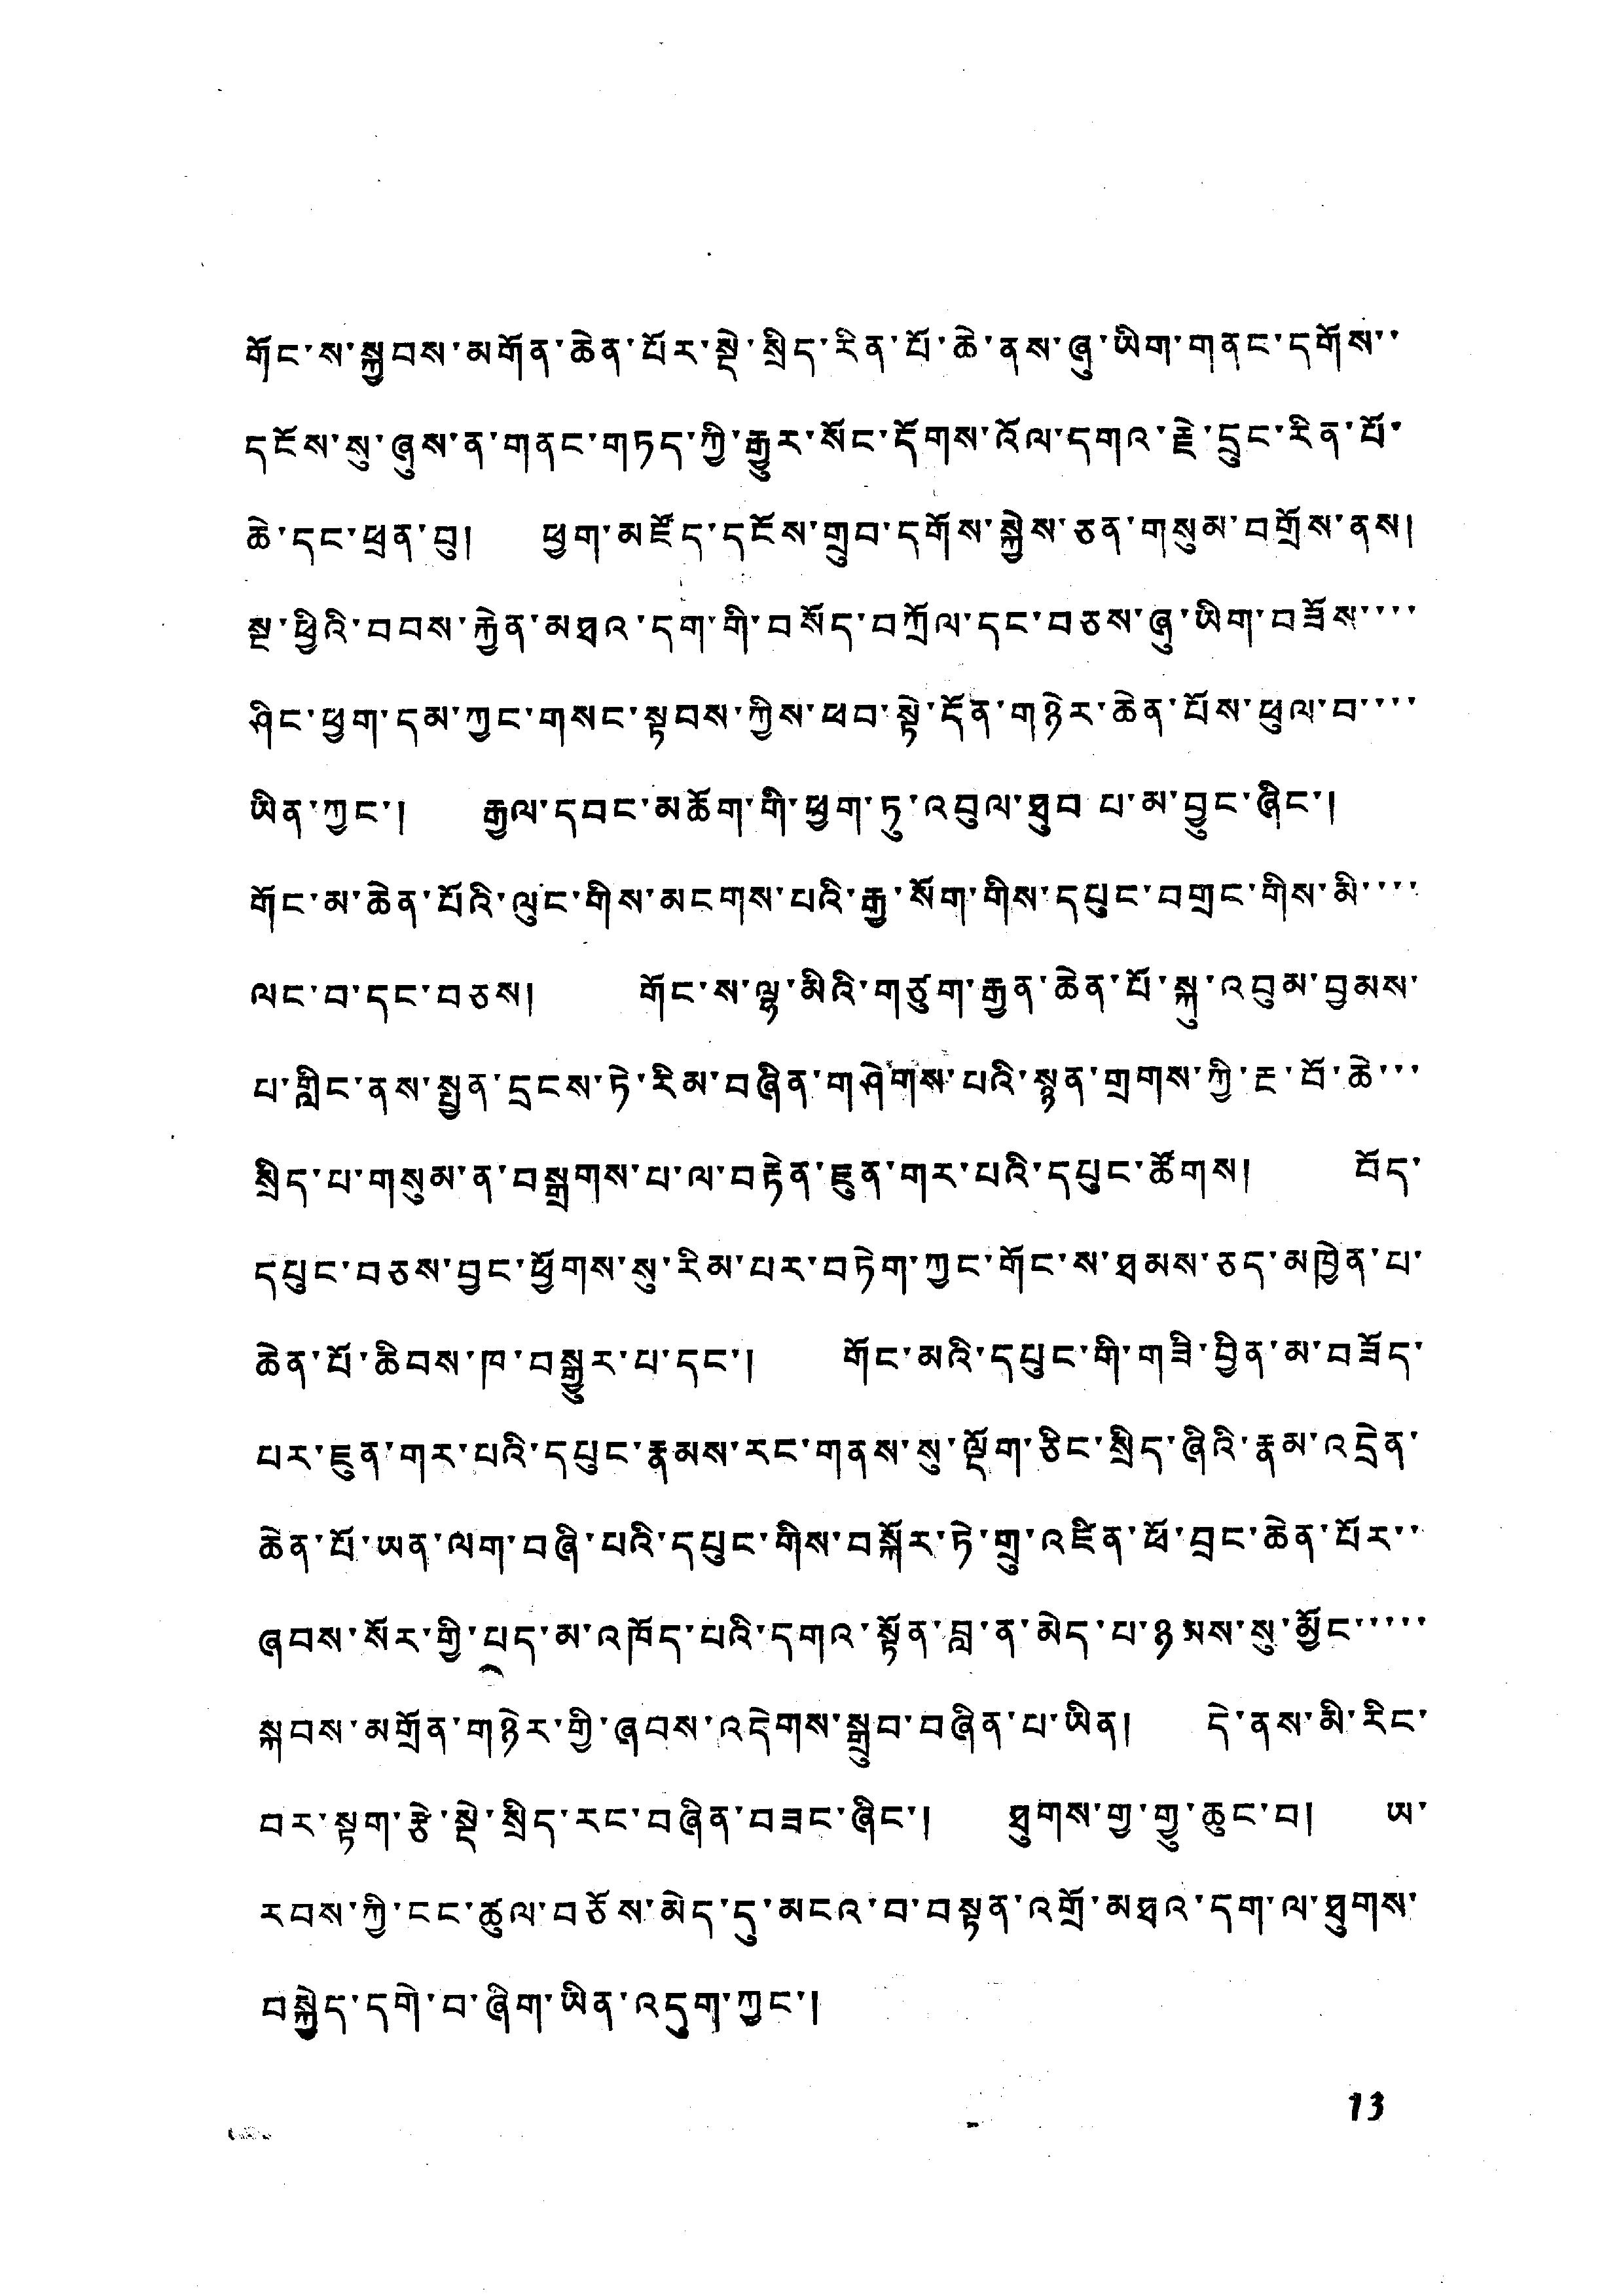གོང་ས་སྐྱབས་མགོན་ཆེན་པོར་སྡེ་སྲིད་རིན་པོ་ཆེ་ནས་ཞུ་ཡིག་གནང་དགོས་་
དངོས་སུ་ཞུས་ན་གནང་གཏད་ཀྱི་རྒྱུར་སོང་དོགས་འོལ་དགའ་རྗེ་དྲུང་རིན་པོ་
ཆེ་དང་ཕྲན་བུ། ཕྱག་མཛོད་དངོས་གྲུབ་དགོས་སྐྱེས་ཅན་གསུམ་བགྲོས་ནས།
སྔ་ཕྱིའི་བབས་རྐྱེན་མཐའ་དག་གི་བསོད་བཀྲོལ་དང་བཅས་ཞུ་ཡིག་བཟོས་་་་
ཤིང་ཕྱག་དམ་ཀྱང་གསང་སྟབས་ཀྱིས་ཕབ་སྟེ་དོན་གཉེར་ཆེན་པོས་ཕུལ་བ་་་་
ཡིན་ཀྱང་། རྒྱལ་དབང་མཆོག་གི་ཕྱག་ཏུ་འབུལ་ཐུབ་པ་མ་བྱུང་ཞིང་།
གོང་མ་ཆེན་པོའི་ལུང་གིས་མངགས་པའི་རྒྱ་སོག་གིས་དཔུང་བགྲང་གིས་མི་་་་
ལང་བ་དང་བཅས། གོང་ས་ལྷ་མིའི་གཙུག་རྒྱུན་ཆེན་པོ་སྐུ་འབུམ་བྱམས་་
པ་གླིང་ནས་སྤྱན་དྲངས་ཏེ་རིམ་བཞིན་གཤེགས་པའི་སྙན་གྲགས་ཀྱི་རྔ་བོ་ཆེ་་་
སྲིད་པ་གསུམ་ན་བསྒྲགས་པ་ལ་བརྟེན་ཇུན་གར་པའི་དཔུང་ཚོགས། བོད་་
དཔུང་བཅས་བྱང་ཕྱོགས་སུ་རིམ་པར་བཏེག་ཀྱང་གོང་ས་ཐམས་ཅད་མཁྱེན་པ་
ཆེན་པོ་ཆིབས་ཁ་བསྒྱུར་པ་དང་། གོང་མའི་དཔུང་གི་གཟི་བྱིན་མ་བཟོད་་
པར་ཇུན་གར་པའི་དཔུང་རྣམས་རང་གནས་སུ་ལྡོག་ཅིང་སྲིད་ཞིའི་རྣམ་འདྲེན་
ཆེན་པོ་ཡན་ལག་བཞི་པའི་དཔུང་གིས་བསྐོར་ཏེ་གྲུ་འཛིན་ཕོ་བྲང་ཆེན་པོར་་་
ཞབས་སོར་གྱི་པད་མ་འཁོད་པའི་དགའ་སྟོན་བླ་ན་མེད་པ་ཉམས་སུ་མྱོང་་་་་
སྐབས་མགྲོན་གཉེར་གྱི་ཞབས་འདེགས་སྒྲུབ་བཞིན་པ་ཡིན། དེ་ནས་མི་རིང་
བར་སྟག་རྩེ་སྡེ་སྲིད་རང་བཞིན་བཟང་ཞིང་། ཐུགས་གྱ་གྱུ་ཆུང་བ། ཡ་
རབས་ཀྱི་ངང་ཚུལ་བཅོས་མེད་དུ་མངའ་བ་བསྟན་འགྲོ་མཐའ་དག་ལ་ཐུགས་
བསྐྱེད་དགེ་བ་ཞིག་ཡིན་འདུག་ཀྱང་།
13
